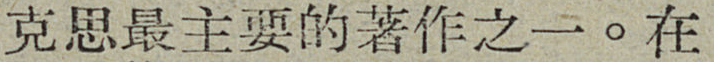克思最主要的著作之一。在
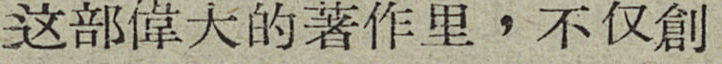这部偉大的著作里，不仅創
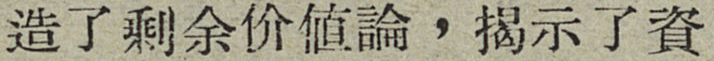造了剩余价值論，揭示了資
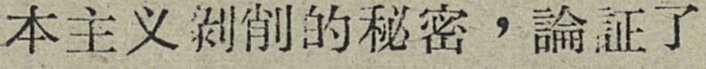本主义剝削的秘密，論証了
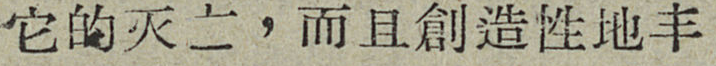它的灭亡，而且創造性地丰
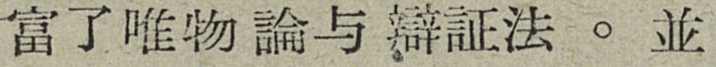富了唯物論与辯証法。並
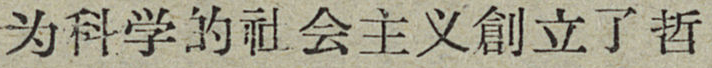为科学的社会主义創立了哲
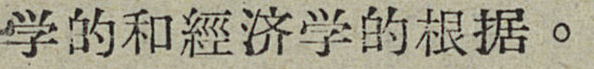学的和經济学的根据。
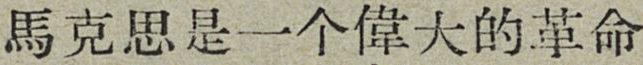馬克思是一偉大的革命
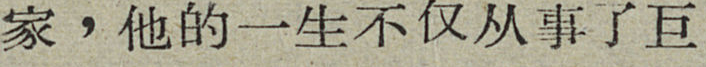家，他的一生不仅从事了巨
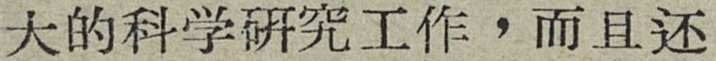大的科学研究工作，而且还
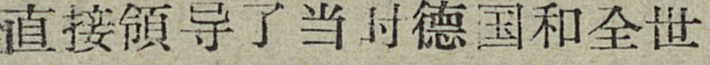直接領导了当时德国和全世
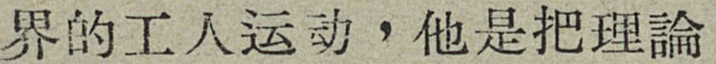界的工人运动，他是把理論
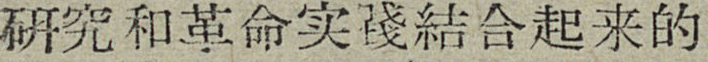研究和革命实踐結合起来的
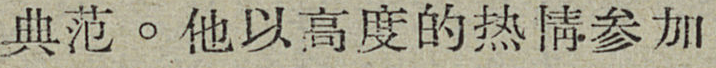典范。他以高度的热情参加
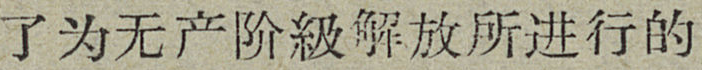了为无产阶級解放所进行的
